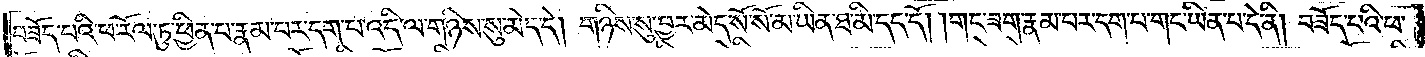བཟོད་པའི་ཕ་རོལ་ཏུ་ཕྱིན་པ་རྣམ་པར་དག་པ་འདི་ལ་གཉིས་སུ་མེད་དེ། གཉིས་སུ་བྱར་མེད་སོ་སོ་མ་ཡིན་ཐ་མི་དད་དོ། །གང་ཟག་རྣམ་པར་དག་པ་གང་ཡིན་པ་དེ་ནི། བཟོད་པའི་ཕ་
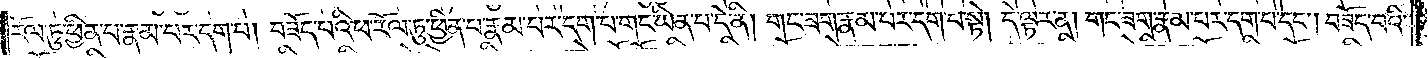རོལ་ཏུ་ཕྱིན་པ་རྣམ་པར་དག་པ། བཟོད་པའི་ཕ་རོལ་ཏུ་ཕྱིན་པ་རྣམ་པར་དག་པ་གང་ཡིན་པ་དེ་ནི། གང་ཟག་རྣམ་པར་དག་པ་སྟེ། དེ་ལྟར་ན། གང་ཟག་རྣམ་པར་དག་པ་དང༌། བཟོད་པའི་
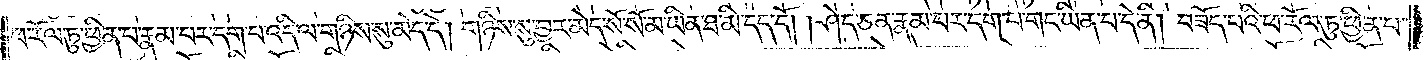ཕ་རོལ་ཏུ་ཕྱིན་པ་རྣམ་པར་དག་པ་འདི་ལ་གཉིས་སུ་མེད་དེ། གཉིས་སུ་བྱར་མེད་སོ་སོ་མ་ཡིན་ཐ་མི་དད་དོ། །ཤེད་ཅན་རྣམ་པར་དག་པ་གང་ཡིན་པ་དེ་ནི། བཟོད་པའི་ཕ་རོལ་ཏུ་ཕྱིན་པ་
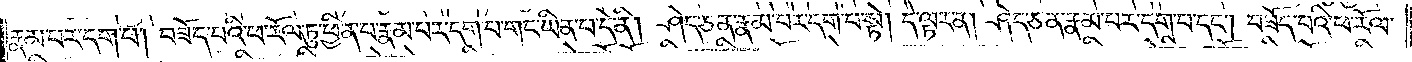རྣམ་པར་དག་པ། བཟོད་པའི་ཕ་རོལ་ཏུ་ཕྱིན་པ་རྣམ་པར་དག་པ་གང་ཡིན་པ་དེ་ནི། ཤེད་ཅན་རྣམ་པར་དག་པ་སྟེ། དེ་ལྟར་ན། ཤེད་ཅན་རྣམ་པར་དག་པ་དང༌། བཟོད་པའི་ཕ་རོལ་
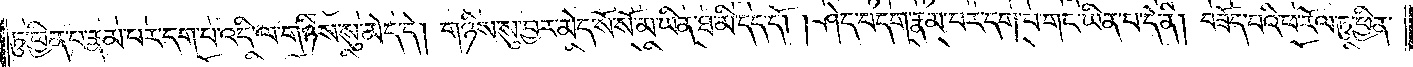ཏུ་ཕྱིན་པ་རྣམ་པར་དག་པ་འདི་ལ་གཉིས་སུ་མེད་དེ། གཉིས་སུ་བྱར་མེད་སོ་སོ་མ་ཡིན་ཐ་མི་དད་དོ། །ཤེད་བདག་རྣམ་པར་དག་པ་གང་ཡིན་པ་དེ་ནི། བཟོད་པའི་ཕ་རོལ་ཏུ་ཕྱིན་
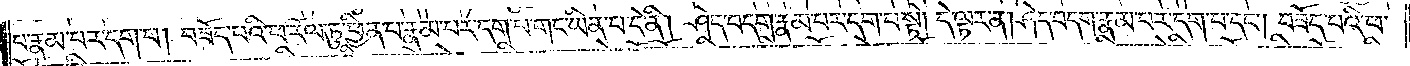པ་རྣམ་པར་དག་པ། བཟོད་པའི་ཕ་རོལ་ཏུ་ཕྱིན་པ་རྣམ་པར་དག་པ་གང་ཡིན་པ་དེ་ནི། ཤེད་བདག་རྣམ་པར་དག་པ་སྟེ། དེ་ལྟར་ན། ཤེད་བདག་རྣམ་པར་དག་པ་དང༌། བཟོད་པའི་ཕ་
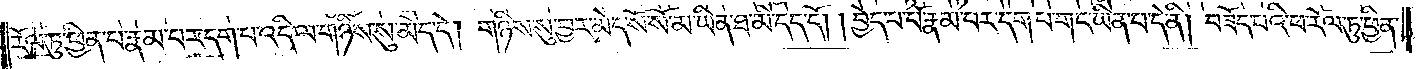རོལ་ཏུ་ཕྱིན་པ་རྣམ་པར་དག་པ་འདི་ལ་གཉིས་སུ་མེད་དེ། གཉིས་སུ་བྱར་མེད་སོ་སོ་མ་ཡིན་ཐ་མི་དད་དོ། །བྱེད་པ་པོ་རྣམ་པར་དག་པ་གང་ཡིན་པ་དེ་ནི། བཟོད་པའི་ཕ་རོལ་ཏུ་ཕྱིན་
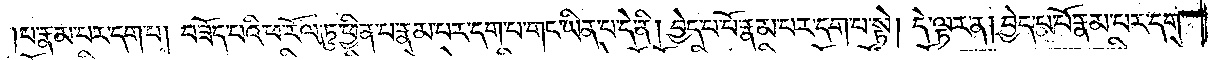པ་རྣམ་པར་དག་པ། བཟོད་པའི་ཕ་རོལ་ཏུ་ཕྱིན་པ་རྣམ་པར་དག་པ་གང་ཡིན་པ་དེ་ནི། བྱེད་པ་པོ་རྣམ་པར་དག་པ་སྟེ། དེ་ལྟར་ན། བྱེད་པ་པོ་རྣམ་པར་དག་
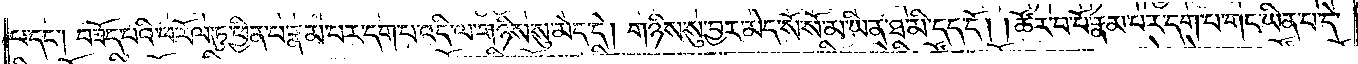པ་དང༌། བཟོད་པའི་ཕ་རོལ་ཏུ་ཕྱིན་པ་རྣམ་པར་དག་པ་འདི་ལ་གཉིས་སུ་མེད་དེ། གཉིས་སུ་བྱར་མེད་སོ་སོ་མ་ཡིན་ཐ་མི་དད་དོ། །ཚོར་བ་པོ་རྣམ་པར་དག་པ་གང་ཡིན་པ་དེ་
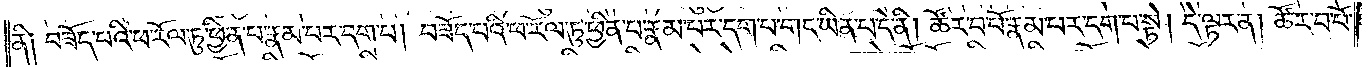ནི། བཟོད་པའི་ཕ་རོལ་ཏུ་ཕྱིན་པ་རྣམ་པར་དག་པ། བཟོད་པའི་ཕ་རོལ་ཏུ་ཕྱིན་པ་རྣམ་པར་དག་པ་གང་ཡིན་པ་དེ་ནི། ཚོར་བ་པོ་རྣམ་པར་དག་པ་སྟེ། དེ་ལྟར་ན། ཚོར་བ་པོ་
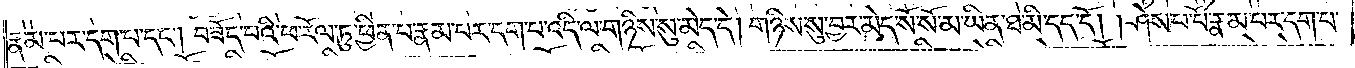རྣམ་པར་དག་པ་དང༌། བཟོད་པའི་ཕ་རོལ་ཏུ་ཕྱིན་པ་རྣམ་པར་དག་པ་འདི་ལ་གཉིས་སུ་མེད་དེ། གཉིས་སུ་བྱར་མེད་སོ་སོ་མ་ཡིན་ཐ་མི་དད་དོ། །ཤེས་པ་པོ་རྣམ་པར་དག་པ་
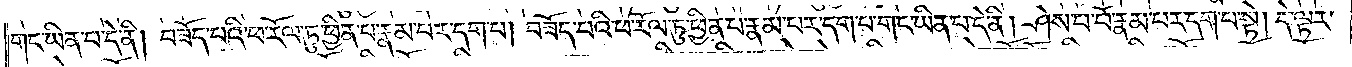གང་ཡིན་པ་དེ་ནི། བཟོད་པའི་ཕ་རོལ་ཏུ་ཕྱིན་པ་རྣམ་པར་དག་པ། བཟོད་པའི་ཕ་རོལ་ཏུ་ཕྱིན་པ་རྣམ་པར་དག་པ་གང་ཡིན་པ་དེ་ནི། ཤེས་པ་པོ་རྣམ་པར་དག་པ་སྟེ། དེ་ལྟར་
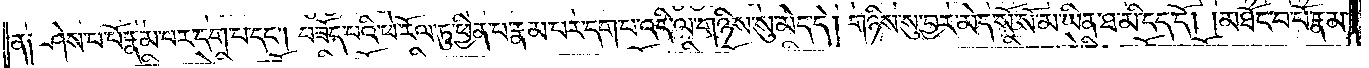ན། ཤེས་པ་པོ་རྣམ་པར་དག་པ་དང༌། བཟོད་པའི་ཕ་རོལ་ཏུ་ཕྱིན་པ་རྣམ་པར་དག་པ་འདི་ལ་གཉིས་སུ་མེད་དེ། གཉིས་སུ་བྱར་མེད་སོ་སོ་མ་ཡིན་ཐ་མི་དད་དོ། །མཐོང་བ་པོ་རྣམ་
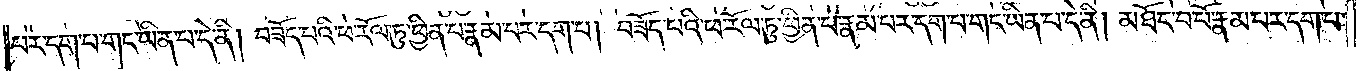པར་དག་པ་གང་ཡིན་པ་དེ་ནི། བཟོད་པའི་ཕ་རོལ་ཏུ་ཕྱིན་པ་རྣམ་པར་དག་པ། བཟོད་པའི་ཕ་རོལ་ཏུ་ཕྱིན་པ་རྣམ་པར་དག་པ་གང་ཡིན་པ་དེ་ནི། མཐོང་བ་པོ་རྣམ་པར་དག་པ་
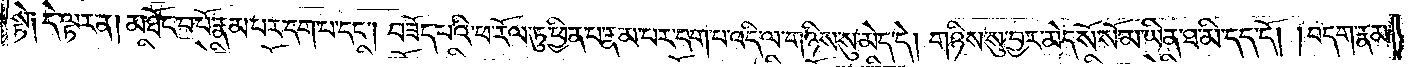སྟེ། དེ་ལྟར་ན། མཐོང་བ་པོ་རྣམ་པར་དག་པ་དང༌། བཟོད་པའི་ཕ་རོལ་ཏུ་ཕྱིན་པ་རྣམ་པར་དག་པ་འདི་ལ་གཉིས་སུ་མེད་དེ། གཉིས་སུ་བྱར་མེད་སོ་སོ་མ་ཡིན་ཐ་མི་དད་དོ། །བདག་རྣམ་
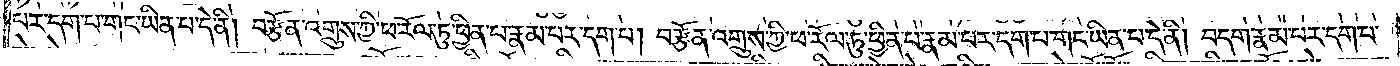པར་དག་པ་གང་ཡིན་པ་དེ་ནི། བརྩོན་འགྲུས་ཀྱི་ཕ་རོལ་ཏུ་ཕྱིན་པ་རྣམ་པར་དག་པ། བརྩོན་འགྲུས་ཀྱི་ཕ་རོལ་ཏུ་ཕྱིན་པ་རྣམ་པར་དག་པ་གང་ཡིན་པ་དེ་ནི། བདག་རྣམ་པར་དག་པ་
